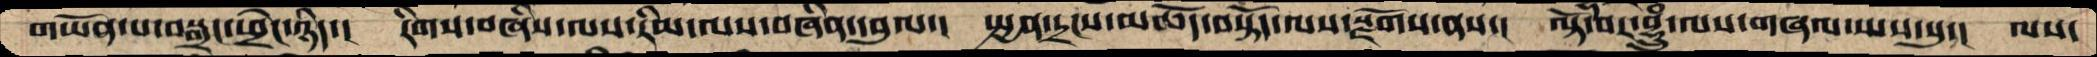གཡོན་པ་བསྒྲང་ཕྲེང་ཉིད་།  རིགས་བཞིས་ལས་རིམ་ལས་བཞིན་དབུལ་།  སྤྱན་དྲངས་མཆོད་བསྟོད་ལས་སྫོགས་ནས་།  ལྟོ་བར་བྷྲུཾ་ལས་གཞལ་ཡས་སུ་།  ལས་
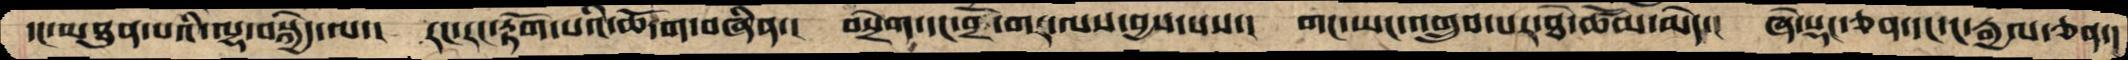དང་མཐུན་པའི་ལྷ་བསྐྱེད་ལ་།  རང་རང་རྟོག་པའི་ཆོ་ག་བཞིན་།  བསྲེག་དང་བྲོ་གར་ལས་བྱས་པས་།  གང་ཡང་འགྲུབ་པར་ཐེ་ཚོམ་མེད་།  ཞེ་སྡང་ཅན་དང་ང་རྒྱལ་ཅན་།
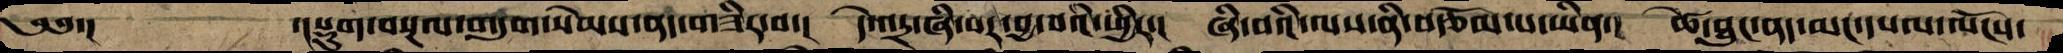༄༅་།        ་།སྡུག་བསྔལ་གདུག་སེམས་ནད་གཟིར་བ་།  དེ་འདྲ་ཞི་བར་བྱ་བའི་ཕྱིར་།  ཞི་བའི་ལས་ནི་བརྩོམ་པ་ཡིན་།  ཚེ་ཐུང་ནད་མང་དཔལ་ལོངས་
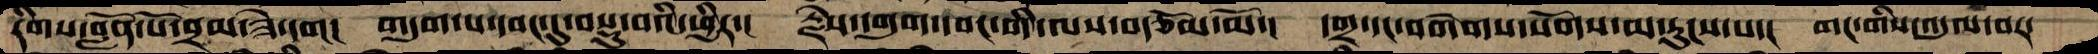རིགས་བློན་པོ་བྲམ་ཟེ་དག།  གདུག་པ་དབང་དུ་བསྡུ་བའི་ཕྱིར་།  རྗེས་དགུག་དབང་གི་ལས་བརྩོམ་མོ་།  དགྲ་དང་བགེགས་སོགས་མ་རུངས་པ་།  གང་གིས་འདུལ་བར་
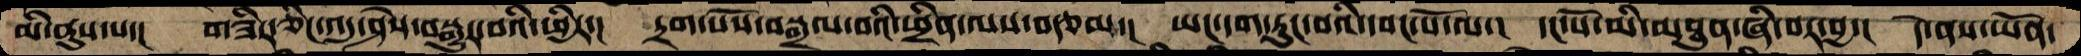མི་ནུས་པ་།  གཟིར་ཅིང་འདུ་ཤེས་བསྒྱུར་བའི་ཕྱིར་།  དྲག་པོས་བསྒྲལ་བའི་ཕྲིན་ལས་བརྩམ་།  ཡང་དག་རུང་བའི་དབང་པོ་ལ་།  དང་པོ་མི་མཐུན་ཞི་བར་བྱ་།  དེ་ནས་ཡོན་
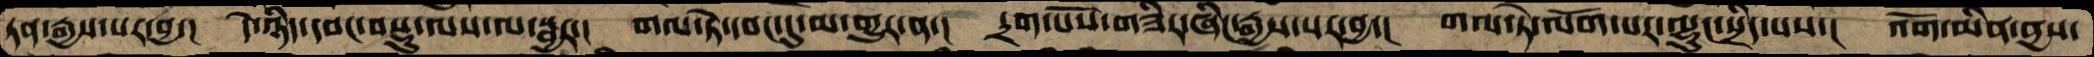ཏན་རྒྱས་པར་བྱ་།  དེ་ཉིད་དབང་བསྡུ་ལས་ལ་སྦྱར་།  གལ་ཏེ་དབང་དུ་མ་གྱུར་ན་།  དྲག་པོས་གཟིར་ཞིང་རྒྱས་པར་བྱ་།  གལ་ཏེ་ལོག་པར་ལྷུང་སྲིད་པས་།  འོག་མིན་ནྱས་
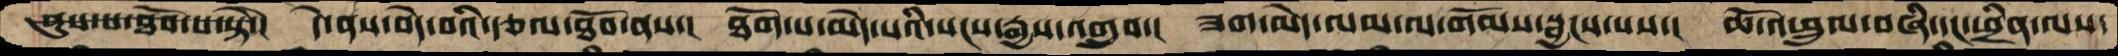ནུས་པ་ཐོབ་པ་སྟེ་།  དེ་ནས་བདེ་བའི་རྩལ་ཐོབ་ནས་།  ཐོག་པ་མེད་པའི་སངས་རྒྱས་འགྲུབ་།  ཟག་མེད་ལམ་ལ་གོམས་སྦྱངས་པས་།  ཆོ་འཕྲུལ་བཞི་དང་ཕྲིན་ལས་
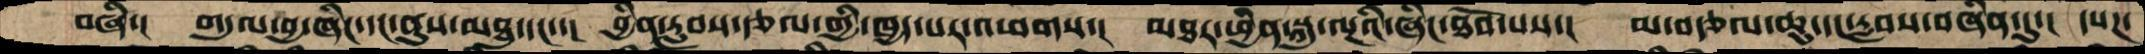བཞི་།  གདུལ་བྱ་ཞིང་དང་ནུས་མཐུ་དང་་།  བྱིན་རླབས་རྩལ་གྱི་ཁྱད་པར་འཕགས་།  མཐར་ཕྱིན་སྐུ་ལྔའི་ཞིང་ཐོབ་པས་།  མ་བརྩལ་ཆུ་དང་རླབས་བཞིན་དུ་།  དཔཌ་
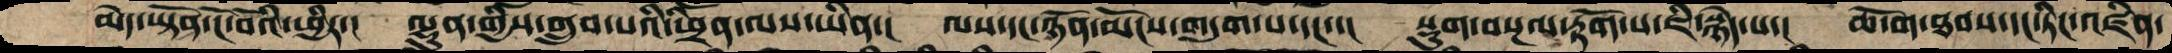མེད་ཡྟོན་ངོ་བོའི་ཕྱིར་།  ལྷུན་གྱིས་གྲུབ་པའི་ཕྲིན་ལས་ཡིན་།  ལས་དང་ཉོན་མོངས་གདུག་པ་དང་་།  སྡུག་བསྔལ་རྟོག་པ་ཇི་སྙེད་པ་།  ཆོ་ག་ཐབས་དང་ཏིང་འཛིན་
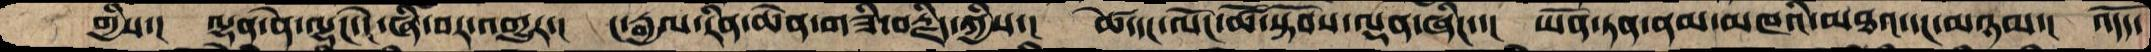གྱིས་།  ལྷན་ནེ་ལྷང་ངེ་ཞི་བར་འགྱུར་།  ང་རྒྱལ་རིན་ཆེན་གཟི་བརྗིད་ཀྱིས་།  ཚེ་དང་ལོང་ཚོ་སྟོབས་ལྡན་ཞིང་་།  ཡོན་ཏན་ནམ་མཁའི་མཐའ་དང་མཉམ་།  འདོད་
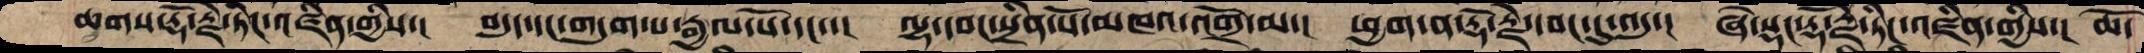ཆགས་རྡོ་རྗེ་ཏིང་འཛིན་གྱིས་།  བདུད་དང་གདུག་པ་རྒྱལ་པོ་དང་་།  ལྷ་དབང་སྲིན་པོ་མཁའ་འགྲོ་མ་།  ཕྱག་ན་རྡོ་རྗེ་དབང་དུ་འདུ་།  ཞེ་སྡང་རྡོ་རྗེ་ཏིང་འཛིན་གྱིས་།  ཆོ་
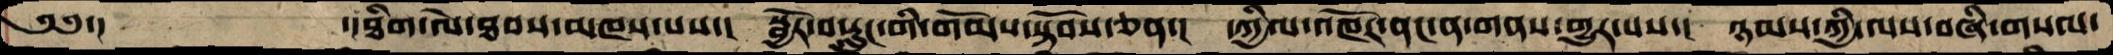༄༅་།       ་།ཐིག་ལེ་ཐབས་མཁས་པས་།  སྦྱོར་བ་རླུང་གི་གོམས་སྟོབས་ཅན་།  དཀྱིལ་འཁོར་ནང་ན་གནས་གྱུར་པས་།  ཉམས་ཀྱི་ལས་བཞི་གསལ་
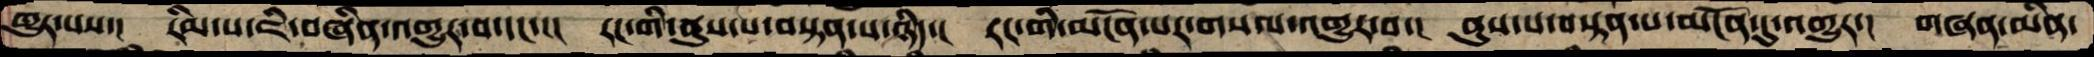གྱུར་པས་།  རིམ་པ་ཇི་བཞིན་འགྱུར་བ་དང་་།  རང་གི་ནུས་པ་བསྟན་པ་ཉིད་།  རང་གི་མངོན་པར་གསལ་འགྱུར་བ་།   ནུས་པ་བསྟན་པ་མངོན་དུ་འགྱུར་།  གཞན་མིན་
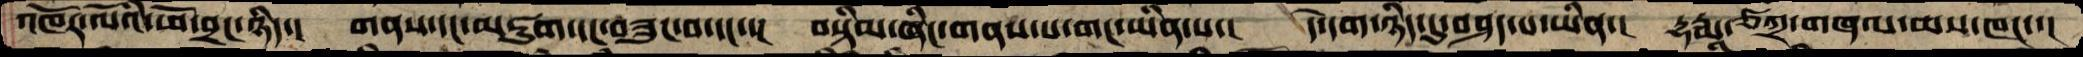འཁོར་ལོའི་ཕོ་བྲང་ཉིད་།  གནས་དང་མཇུག་དང་བཟུང་བ་དང་་།  བསྟིམ་ཞིང་གནས་པ་གང་ཡིན་པ་།  དེ་དག་ཉིད་དུ་བཤད་པ་ཡིན་།  རྡརྨཱ་ཙཀྲ་གཞལ་ཡས་ཁང་།
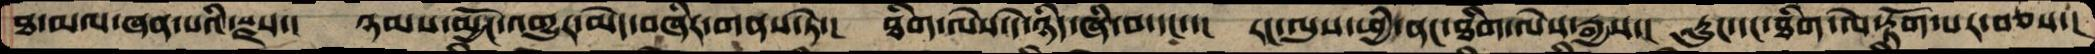ཐ་མལ་ཞན་པའི་སྫས་།  ཉམས་མྱོང་འགྱུར་མེད་བཞིར་གནས་ཏེ་།  ཐིག་ལེས་དེ་ཉིད་ཞི་བ་དང་་།  རང་ལུས་ཕྱི་ནང་ཐིག་ལེས་རྒྱས་།  རླུང་དང་ཐིག་ལེ་རྟོག་པར་བཅས་།
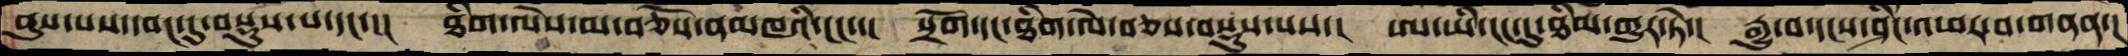ནུས་པས་དབང་དུ་བསྡུས་པ་དང་་།  ཐིག་ལེས་མ་བཅོས་ནམཁའི་ངང་་།  སྲོག་དང་ཐིག་ལེ་བཅས་བསྡུས་པས་།  ཨ་ཡི་ངང་དུ་ཐིམ་གྱུར་ཏེ་།  རྒྱུ་བ་དངས་ཤིང་འཕར་བ་གནན་།
